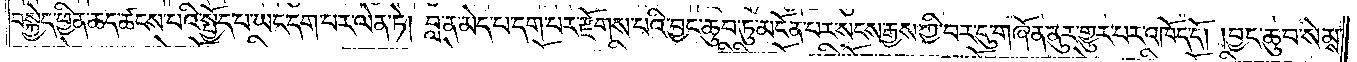བསྐྱེད་ཕྱིན་ཆད་ཚངས་པའི་སྤྱོད་པ་ཡང་དག་པར་ལེན་ཏེ། བླ་ན་མེད་པ་དག་པར་རྫོགས་པའི་བྱང་ཆུབ་ཏུ་མངོན་པར་སངས་རྒྱས་ཀྱི་བར་དུ་གཞོན་ནུར་གྱུར་པར་འཁོད་དོ། །བྱང་ཆུབ་སེམས་
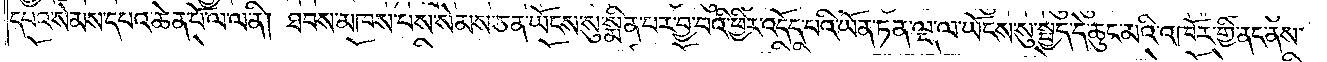དཔའ་སེམས་དཔའ་ཆེན་པོ་ལ་ལ་ནི། ཐབས་མཁས་པས་སེམས་ཅན་ཡོངས་སུ་སྨིན་པར་བྱ་བའི་ཕྱིར་འདོད་པའི་ཡོན་ཏན་ལྔ་ལ་ཡོངས་སུ་སྤྱད་དེ་ཆུང་མའི་འཁོར་གྱི་ནང་ནས་
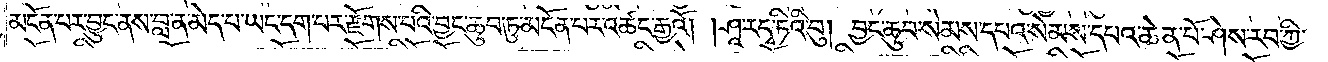མངོན་པར་བྱུང་ནས་བླ་ན་མེད་པ་ཡང་དག་པར་རྫོགས་པའི་བྱང་ཆུབ་ཏུ་མངོན་པར་འཚང་རྒྱའོ། །ཤཱ་ར་དྭ་ཏིའི་བུ། བྱང་ཆུབ་སེམས་དཔའ་སེམས་དཔའ་ཆེན་པོ་ཤེས་རབ་ཀྱི་
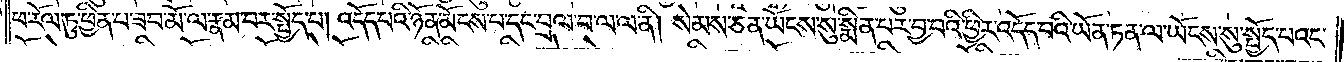ཕ་རོལ་ཏུ་ཕྱིན་པ་ཟབ་མོ་ལ་རྣམ་པར་སྤྱོད་པ། འདོད་པའི་ཉོན་མོངས་པ་དང་བྲལ་བ་ལ་ལ་ནི། སེམས་ཅན་ཡོངས་སུ་སྨིན་པར་བྱ་བའི་ཕྱིར་འདོད་པའི་ཡོན་ཏན་ལ་ཡོངས་སུ་སྤྱོད་པའང་
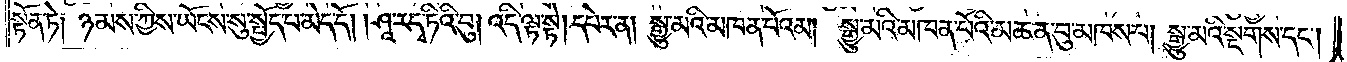སྟོན་ཏེ༑ ཉམས་ཀྱིས་ཡོངས་སུ་སྤྱོད་པ་མེད་དོ། །ཤཱ་ར་དྭ་ཏིའི་བུ། འདི་ལྟ་སྟེ། དཔེར་ན། སྒྱུ་མའི་མཁན་པོའམ། སྒྱུ་མའི་མཁན་པོའི་མཆན་བུ་མཁས་པ། སྒྱུ་མའི་སྔགས་དང༌།
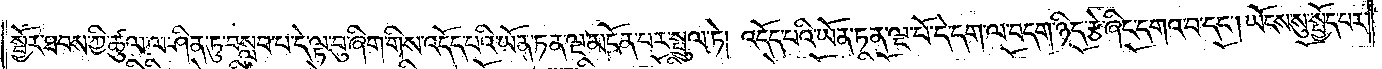སྦྱོར་ཐབས་ཀྱི་ཚུལ་ལ་ཤིན་ཏུ་བསླབ་པ་དེ་ལྟ་བུ་ཞིག་གིས་འདོད་པའི་ཡོན་ཏན་ལྔ་མངོན་པར་སྤྲུལ་ཏེ། འདོད་པའི་ཡོན་ཏན་ལྔ་པོ་དེ་དག་ལ་བདག་ཉིད་རྩེ་ཞིང་དགའ་བ་དང༌། ཡོངས་སུ་སྤྱོད་པར་
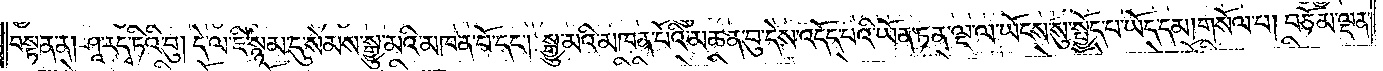བསྟན་ན། ཤཱ་ར་དྭ་ཏིའི་བུ། དེ་ལ་ཇི་སྙམ་དུ་སེམས་སྒྱུ་མའི་མཁན་པོ་དང༌། སྒྱུ་མའི་མཁན་པོའི་མཆན་བུ་དེས་འདོད་པའི་ཡོན་ཏན་ལྔ་ལ་ཡོངས་སུ་སྤྱོད་པ་ཡོད་དམ། གསོལ་པ། བཅོམ་ལྡན་
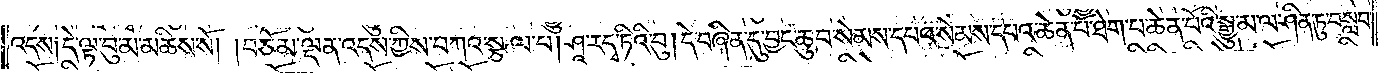འདས། དེ་ལྟ་བུ་མ་མཆིས་སོ། །བཅོམ་ལྡན་འདས་ཀྱིས་བཀའ་སྩལ་པ། ཤཱ་ར་དྭ་ཏིའི་བུ། དེ་བཞིན་དུ་བྱང་ཆུབ་སེམས་དཔའ་སེམས་དཔའ་ཆེན་པོ་ཐེག་པ་ཆེན་པོའི་སྒྱུ་མ་ལ་ཤིན་ཏུ་བསླབ་
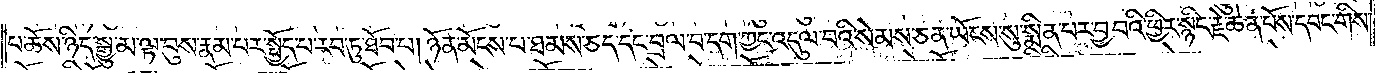པ་ཆོས་ཉིད་སྒྱུ་མ་ལྟ་བུས་རྣམ་པར་སྤྱོད་པ་རབ་ཏུ་ཐོབ་པ། ཉོན་མོངས་པ་ཐམས་ཅད་དང་བྲལ་བ་དག་ཀྱང་འདུལ་བའི་སེམས་ཅན་ཡོངས་སུ་སྨིན་པར་བྱ་བའི་ཕྱིར་སྙིང་རྗེ་ཆེན་པོས་དབང་གིས་
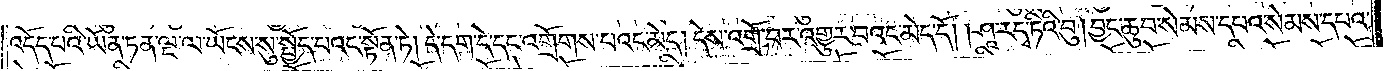འདོད་པའི་ཡོན་ཏན་ལྔ་ལ་ཡོངས་སུ་སྤྱོད་པའང་སྟོན་ཏེ། དེ་དག་དེ་དང་འགྲོགས་པའང་མེད། དེས་འགྲོ་བར་འགྱུར་བའང་མེད་དོ། །ཤཱ་ར་དྭ་ཏིའི་བུ། བྱང་ཆུབ་སེམས་དཔའ་སེམས་དཔའ་
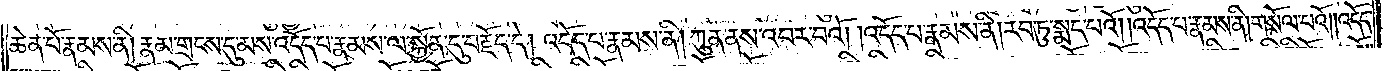ཆེན་པོ་རྣམས་ནི། རྣམ་གྲངས་དུ་མས་འདོད་པ་རྣམས་ལ་སྐྱོན་དུ་བརྗོད་དེ། འདོད་པ་རྣམས་ནི། ཀུན་ནས་འབར་བའོ། །འདོད་པ་རྣམས་ནི། རབ་ཏུ་སྨད་པའོ། །འདོད་པ་རྣམས་ནི། གསོལ་པའོ། །འདོད་
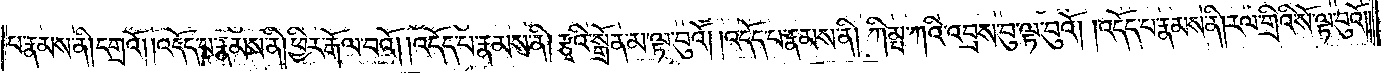པ་རྣམས་ནི། དགྲའོ། །འདོད་པ་རྣམས་ནི། ཕྱིར་རྒོལ་བའོ། །འདོད་པ་རྣམས་ནི། རྩྭའི་སྒྲོན་མ་ལྟ་བུའོ། །འདོད་པ་རྣམས་ནི། ཀིམྤ་ཀའི་འབྲས་བུ་ལྟ་བུའོ། །འདོད་པ་རྣམས་ནི། རལ་གྲིའི་སོ་ལྟ་བུའོ༎
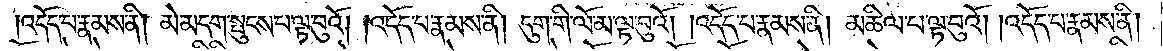འདོད་པ་རྣམས་ནི། མེ་མདག་སྤུངས་པ་ལྟ་བུའོ། །འདོད་པ་རྣམས་ནི། དུག་གི་ལོ་མ་ལྟ་བུའོ། །འདོད་པ་རྣམས་ནི། མཆིལ་པ་ལྟ་བུའོ། །འདོད་པ་རྣམས་ནི།
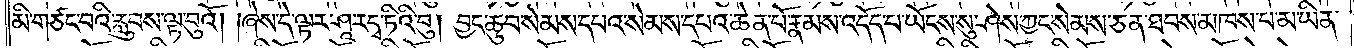མི་གཙང་བའི་རླུབས་ལྟ་བུའོ། །ཞེས་དེ་ལྟར་ཤཱ་ར་དྭ་ཏིའི་བུ། བྱང་ཆུབ་སེམས་དཔའ་སེམས་དཔའ་ཆེན་པོ་རྣམས་འདོད་པ་ཡོངས་སུ་ཤེས་ཀྱང་སེམས་ཅན་ཐབས་མཁས་པ་མ་ཡིན་
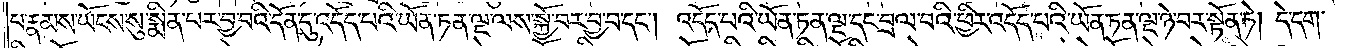པ་རྣམས་ཡོངས་སུ་སྨིན་པར་བྱ་བའི་དོན་དུ་འདོད་པའི་ཡོན་ཏན་ལྔ་ལས་སྐྱོ་བར་བྱ་བ་དང༌། འདོད་པའི་ཡོན་ཏན་ལྔ་དང་བྲལ་བའི་ཕྱིར་འདོད་པའི་ཡོན་ཏན་ལྔ་ཉེ་བར་སྟོན་ཏེ། དེ་དག་
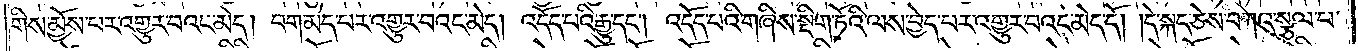གིས་མྱོས་པར་འགྱུར་བའང་མེད། བག་མེད་པར་འགྱུར་བའང་མེད། འདོད་པའི་རྒྱུ་དང༌། འདོད་པའི་གཞིས་སྡིག་ཏོའི་ལས་བྱེད་པར་འགྱུར་བའང་མེད་དོ། །དེ་སྐད་ཅེས་བཀའ་སྩལ་པ་
